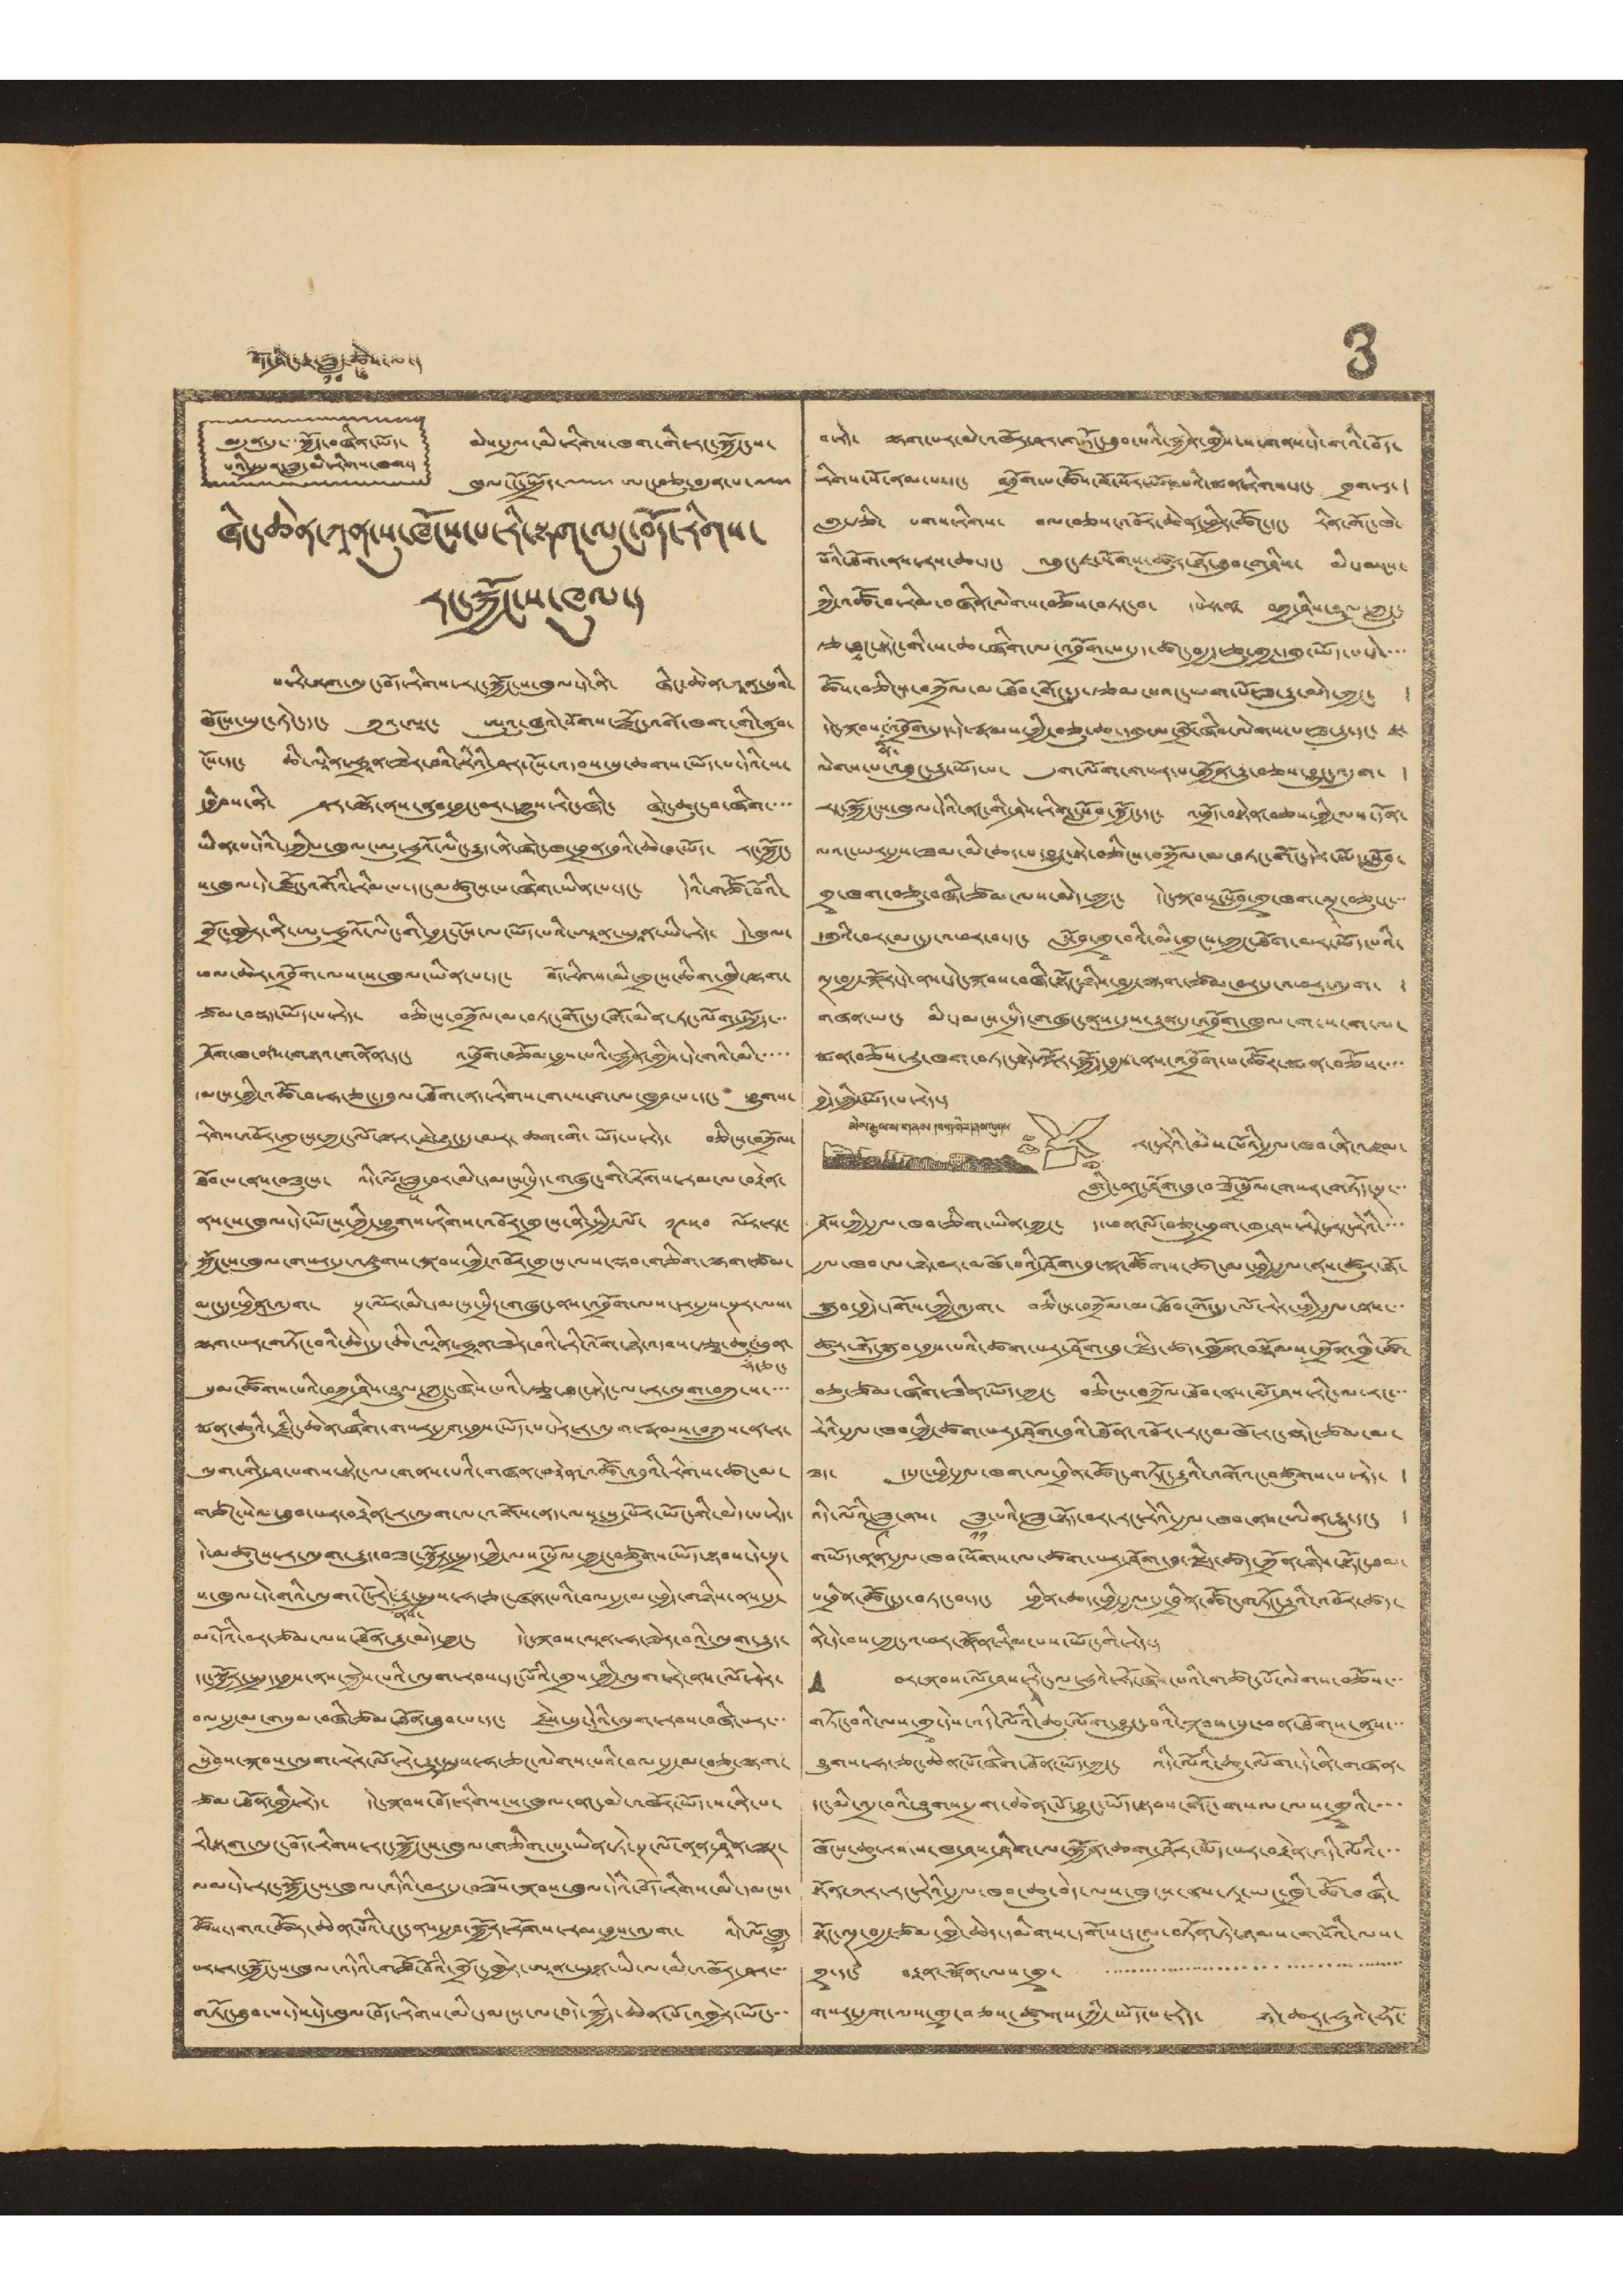བོད་ཤིང་རྟ་ཟླ་
༡༠
ཚེས་
༦
ལ་། 3
མདུན་དུ་་་སྐྱོད་བཞིན་ཡོད་
པའི་སྤུན་ཟླ་མི་རིགས་ཁག་།
མེས་རྒྱལ་མི་རིགས་ཁག་གི་རང་སྐྱོང་ས་
ཁུལ་ངོ་སྤྲོད་ལམ་ ཨང་བཅུ་བདུན་པ་ལམ་
ཞིང་ཆེན་ཀཱན་སུ་ཁོངས་པ་རི་སྟག་ལུང་བོད་རིགས་
རང་སྐྱོང་ས་ཁུལ་།
པ་རི་སྟག་ལུང་བོད་རིགས་རང་སྐྱོང་ས་ཁུལ་དེ་ནི་ ཞིང་ཆེན་ཀཱན་སུའི་
ཁོངས་ཡུང་ཏེང་དང་ ཀུའུ་ལཱང་ ཨུའུ་ཝུའེ་སོགས་རྫོང་འགོ་ཁག་གི་ནུབ་
ངོས་དང་ ཆི་ལཱིན་ཧྲཱན་ཟེར་བའི་རིའི་ཤར་ངོས་འདབས་སུ་ཆགས་ཡོད་པ་དེའི་ས་
དབྱིབས་ནི་ ཤར་ལྷོ་ནས་ནུབ་བྱང་བར་དཀྱུས་རིང་ཞིང་ ཞེང་ཆུང་བ་ཞིག་་་་
ཡིན་པ་དེའི་དཀྱིལ་ཁུལ་ཨུ་ཧྲའོ་ལིང་རྒྱུད་ནི་ཞེང་ཁ་ཕྲན་བུའི་ཆེ་བ་ཡོད་ རང་སྐྱོང་
ས་ཁུལ་དེ་རྫོང་འགོའི་རིམ་པ་དང་མཚུངས་པ་ཞིག་ཡིན་པ་དང་ དེའི་གཙོ་བོའི་
གྲོང་ཁྱེར་ནི་ཨུ་ཧྲའོ་ལིང་གི་བྱང་ངོས་ལ་ཡོད་པའི་ཨཱན་ཡུན་ཡི་རེད་ དེ་ཁུལ་
ཕལ་ཆེར་འབྲོག་ལས་ས་ཁུལ་ཡིན་པ་དང་ བོད་རིགས་མི་གྲངས་ཆིག་ཁྲི་ལྷག་
ཙམ་བསྡད་ཡོད་པ་རེད་ བཅིངས་བཀྲོལ་མ་བཏང་གོང་དུ་གོ་མིན་ཏང་ལོག་སྤྱོད་་་
ཤོག་ཁ་ནས་གཉའ་གནོན་དང་ འཕྲོག་བཅོམ་བྱས་པའི་རྐྱེན་གྱིས་དེ་གའི་མི་་་་་
དམངས་ཀྱི་འཚོ་བ་ཧ་ཅང་དབུལ་ཐོག་ནད་རིགས་ག་ས་ག་ལ་ཁྱབ་པ་དང་ ཕྱུགས་
རིགས་འབོར་གྲངས་ཀྱང་ལོ་ལྟར་ཇེ་ཉུང་དུ་མར་ཆག་གི་ཡོད་པ་རེད་ བཅིངས་བཀྲོལ་
ཐོབ་པ་ནས་བཟུངས་ འདི་ལོ་ཟླ་
༥
བར་མི་དམངས་སྲིད་གཞུང་གི་རོགས་རམ་ལ་བརྟེན་
ནས་ས་ཁུལ་དེ་ཡོངས་ཀྱི་ཕྱུགས་རིགས་འབོར་གྲངས་ནི་སྤྱི་ལོ་ ༡༩༥༠ ལོར་རང་
སྐྱོང་ས་ཁུལ་གསར་དུ་འཛུགས་སྐབས་ཀྱི་འབོར་གྲངས་ལས་ལྡབ་གཅིག་ལྷག་ཙམ་
མང་དུ་ཕྱིན་འདུག་ སྔ་ལོར་མི་དམངས་སྲིད་གཞུང་ནས་འབྲོག་ལས་དར་རྒྱས་སྔར་ལས་
ལྷག་པར་གཏོང་བའི་ཆེད་དུ་ཆི་ལཱིན་ཧྲཱན་ཟེར་བའི་རི་འོག་ཉེ་འདབས་རྩྭ་ཆུ་
ཧ་ཅང་
ཕུན་
སུམ་ཚོགས་པའི་བཀྲ་ཤིས་ཤུལ་ཀླུང་ཞེས་པའི་རྩྭ་ཐང་སྟེང་ལ་ར་ལུག་བཀྲུ་ས་་་་
སྨན་ཆུའི་རྫིང་ཆེན་ཞིག་གསར་རྒྱག་བྱས་ཡོད་པ་དེར་ར་ལུག་རྣམས་བཀྲུས་ན་ར་
ལུག་གི་ཤ་པགས་སྟེང་ལ་གནས་པའི་གཞན་བརྟེན་འཚོ་འབུའི་རིགས་ཚང་མ་
གཙང་སེལ་ཐུབ་པར་བརྟེན་ར་ལུག་ལ་འགོས་ནད་ལས་སླ་པོར་ཡོང་གི་མེད་པ་རེད་
དེ་མཚུངས་ར་ལུག་རྒྱུད་བཟང་སྦྱོར་སྤྲད་ཀྱི་ལས་སྲོལ་ཀྱང་བཙུགས་ཡོད་སྟབས་དེ་སྔ་
ས་ཁུལ་དེ་གའི་ལུག་ངོ་རེ་
ནས་
རྒྱུ་སྤུས་ཧ་ཅང་ཞན་པའི་བལ་རྒྱ་མ་ཕྱེད་གཉིས་ནས་རྒྱ་
མ་དོའི་བར་ཙམ་ལས་ཐོན་རྒྱུ་མེད་ཀྱང་ དེང་སྐབས་ལཱན་ཧ་ཟེར་བའི་ལུག་རྒྱུད་
དང་སྦྱོར་སྤྲད་བྱས་ནས་སྐྱེས་པའི་ལུག་རབས་དང་པོའི་གྲས་ཀྱི་ལུག་རེ་ནས་ལོ་རེར་
བལ་རྒྱ་མ་གསུམ་བཞི་ཙམ་ཐོན་ཐུབ་པ་དང་ རྗེས་སུ་དེའི་ལུག་རབས་བཞི་པར་་་
སླེབས་སྐབས་ལུག་རེར་ལོ་རེ་རྒྱུ་སྤུས་ཧ་ཅང་ལེགས་པའི་བལ་རྒྱ་མ་བཅུ་ལྷག་
ཙམ་ཐོན་གྱི་རེད་ དེང་སྐབས་བོད་རིགས་ས་ཁུལ་ནང་མེ་འཁོར་ཡོད་པ་ནི་པ་
རི་སྟག་ལུང་བོད་རིགས་རང་སྐྱོང་ས་ཁུལ་གཅིག་པུ་ཡིན་ཏེ་སྔ་ལོ་ནཱན་ཤཱིན་ལྕཊ་
ལམ་དེ་རང་སྐྱོང་ས་ཁུལ་འདིའི་བར་དུ་བཟོས་སྐབས་ཁུལ་དེའི་བོད་རིགས་མི་དམངས་
ཚོས་དགའ་ཚོར་ཆེན་པོའི་ངང་ནས་རྒྱབ་སྐྱོར་རོགས་རམ་བྱས་འདུག་ འདི་ལོ་ཟླ་
༧
པར་རང་སྐྱོང་ས་ཁུལ་འདིའི་གཙོ་བོའི་གྲོང་ཁྱེར་ཨཱན་ཡུནཱ་ཡི་ལ་མི་འཁོར་ཤར་་་
གཏོང་ཐུབ་པ་དེས་དེ་ཁུལ་བོད་རིགས་མི་དམངས་ལ་བདེ་སྐྱིད་ཆེན་པོ་འཁྱེར་ཡོང་་་
བ་རེད་ ལྷག་པར་མེ་འཁོར་ཤར་གཏོང་ཐུབ་པའི་རྐྱེན་གྱིས་ས་གནས་དེ་གའི་བོད་
རིགས་སོ་ནམ་པ་དང་ འབྲོག་པ་ཚོས་སོ་སོར་ཡོད་པའི་སྨན་རིགས་དང་ ཁྲག་རཱ་ །
གླ་རྩི་ པགས་རིགས་ བལ་བཅས་འབོར་ཆེན་ཕྱིར་ཚོང་དང་ རིན་གོང་ཁེ་
པོའི་ཐོག་ནས་རས་ཆ་དང་ འཐུང་ཇ་སོགས་ཚུར་ཉོ་ཐུབ་གཤིས་ མི་དམངས་
ཀྱི་འཚོ་བ་རིམ་བཞིན་ལེགས་བཅོས་བཏང་བ་ དཔེར་ན་ བཀྲ་ཤིས་ཤུལ་ཀླུང་
རྩ་ཐྭང་སྟེང་གི་ས་ཆ་ཞིག་ལ་འབྲོག་པ་དུད་ཚང་བརྒྱད་ཅུ་གྱ་དགུ་ཡོད་པ་དེ་་་་
ཚོས་བཅིངས་བཀྲོལ་མ་ཐོབ་གོང་དུ་རྩམ་པའང་ཡག་པོ་ཟ་རྒྱུ་མེད་ཀྱང་ །
དེང་སྐབས་
གི་
འབྲོག་དུ་དེ་རྣམས་ཀྱི་བཅུ་ཆ་དགུ་ལ་གྲོ་ཞིབ་ལེགས་པ་ཟ་རྒྱུ་དང་ ཇ་
ལེགས་པ་འཐུང་རྒྱུ་ཡོད་པ་ དུག་ལོག་གསར་པ་གྱོན་རྒྱུ་བཅས་བྱུང་འདུག་ །
རང་སྐྱོང་ས་ཁུལ་དེའི་ནང་གི་ཤེས་རིག་སློབ་སྦྱོང་དང་ འཕྲོད་བསྟེན་བཅས་ཀྱི་ལས་དོན་
ལའང་ཡར་རྒྱས་རྒྱས་ཟམ་མི་ཆ་པ་བྱུང་སྟེ་བཅིངས་བཀྲོལ་མ་བཏང་གོང་དེར་ཡོད་སློབ་
གྲྭ་ཁག་བཅུ་བཞི་ཙམ་ལས་མེད་ཀྱང་ དེངས་སྐབས་སློབ་གྲྭ་ཁག་ལྔ་བཅུ་ང་་་
དགུའི་བར་མང་དུ་འཕར་བ་དང་ སློབ་གྲྭ་བའི་མི་གྲངས་ཀྱང་ཐོག་མར་ཡོད་པའི་
ལྔ་བརྒྱ་སྐོར་དེ་ནས་དེང་སྐབས་བཞི་སྟོང་ཉིས་བརྒྱ་ལྷག་ཙམ་བར་དུ་འཕར་འདུག་ །
གཞན་ཡང་ མི་དམངས་སྲིད་གཞུང་ནས་དུས་རྒྱུན་དུ་འབྲོག་ཁུལ་ག་ས་ག་ལ་
སྨན་བཅོས་རུ་ཁག་བཏང་སྟེ་སྐོར་སྐྱོད་བྱས་ནས་འབྲོག་པ་ཚོར་སྨན་བཅོས་་་་
བྱེད་ཀྱི་ཡོད་པ་རེད་།
མེས་རྒྱལ་ས་གནས་ཁག་གི་གནས་ལུགས་
རང་རེའི་མེས་པོའི་རྒྱལ་ཁབ་ནི་འཛམ་
གླིང་ནང་ཤོག་བུ་བཟོ་སྲོལ་གསར་གཏོད་སྔ་་་
ཤོས་ཀྱི་རྒྱལ་ཁབ་ཅིག་ཡིན་ཀྱང་ ད་ཕན་ལོ་བཅུ་ཕྲག་ཁ་ཤས་རིང་རང་རེའི་་་་
རྒྱལ་ཁབ་ལ་ཉེ་བར་མཁོ་བའི་ཤོག་བུ་སྣ་ཚོགས་ཚང་མ་ཕྱི་རྒྱལ་ནས་ཚུར་ཉོ་
སྒྲུབ་བྱེད་དགོས་ཀྱི་འདུག་ བཅིངས་བཀྲོལ་མ་ཐོབ་གོང་དུ་ལོ་རེར་ཕྱི་རྒྱལ་ནས་་་
ཚུར་ཉོ་སྒྲུབ་བྱས་པའི་ཚག་པར་ཤོག་བུ་ལྗིད་ཚད་ཁྱོན་བསྡོམས་ཀྲོན་ཁྲི་ཚོ་
བཅུ་ཙམ་ཞིག་ཟིན་ཡོད་ཀྱང་ བཅིངས་བཀྲོལ་ཐོབ་ནས་ལོ་ཤས་རིང་ལ་རང་་་
རེའི་རྒྱལ་ཁབ་ཀྱི་ཚག་པར་ཤོག་བུའི་ཐོན་འབོར་རང་མཁོ་རང་ལྡེང་ཙམ་མ་
ཟད་ ད་དུང་ཕྱི་རྒྱལ་ཁག་ལ་བྲིན་ཚོང་གཏོང་རྒྱུའི་འགོའང་བཙུགས་པ་རེད་ །
འདི་ལོའི་ཟླ་
༩
ནས་ ཟླ་
༡༡
པའི་ཟླ་སྟོད་བར་རང་རེའི་རྒྱལ་ཁབ་ནས་ཨིན་རྒྱུ་དང་ །
གཡོད་ནཱན་རྒྱལ་ཁབ་སོགས་ལ་ཚག་པར་ཤོག་བུ་ལྗིད་ཚད་ཀྲོན་ཉིས་སྟོང་ཐམ་
པ་བྲིན་ཚོང་དུ་བཏང་བ་དང་ ཕྱིན་ཆད་ཕྱི་རྒྱལ་དུ་བྲིན་ཚོང་གཏོང་རྒྱུའི་འབོར་ཚད་
ནི་དེ་བས་ཀྱང་འཕར་སྣོན་རིམ་པས་ཡོང་གི་རེད་།
• བར་སྐབས་ལོ་ཤས་རིང་ལ་ཧུའེ་ཧོ་ཞེས་པའི་གཙང་པོ་ལེགས་བཅོས་་་
གཏོང་བའི་ལས་གྲྭ་དེས་འདི་ལོའི་ཆུ་ལོག་བྱུང་བའི་སྐབས་སུ་ཕན་ཐོག་ནུས་་་
ཤུགས་ཧ་ཅང་ཆེན་པོ་ཞིག་ཐོན་ཡོད་ཀྱང་ འདི་ལོའི་ཆུ་ལོག་དེ་ནི་གཞན་
དང་མི་འདྲ་བའི་ཤུགས་དྲག་ཆེན་པོ་བྱུང་ཡོད་སྟབས་གོང་གསལ་ལས་གྲྭའི་་་་
ཁོངས་ཆུ་རབ་ས་ཁ་ཤས་ཤིག་ལ་སྐྱོན་ཆག་ཤོར་ཡོད་པར་བརྟེན་འདི་ལོའི་་་
སྟོན་ཀར་རང་རེའི་རྒྱལ་ཁབ་ཆུ་བདེ་ལས་ཁུངས་ནས་ཏཱ་ཡང་ཁྲི་ཚོ་བཞི་
སྟོང་ལྔ་བརྒྱ་ཙམ་གྱི་ཆེད་དམིགས་དགོས་དངུལ་བཏོན་ཏེ་ཉམས་གསོའི་ལས་
གྲྭ་དང་ བརྟན་སྣོན་ལས་གྲྭ་ ་་་་་་་་་་་་་་་་་་་་་་་་་་་་་་་་་་་་་་་་་་
གསར་རྒྱག་ལས་གྲྭ་བཅས་ཚུགས་ཀྱི་ཡོད་པ་རེད་ ཉེ་ཆར་ཧུའེ་ཧོ་
